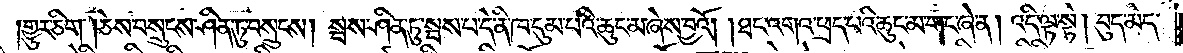གྱུར་ཅིག །ཅེས་བསྲུངས་ཤིན་ཏུ་བསྲུངས། སྦས་ཤིན་ཏུ་སྦས་པ་དེ་ནི་ཁ་དུམ་པའི་ཆུང་མ་ཞེས་བྱའོ། །ཐང་འགའ་ཕྲད་པའི་ཆུང་མ་གང་ཞེ་ན། འདི་ལྟ་སྟེ། བུད་མེད་
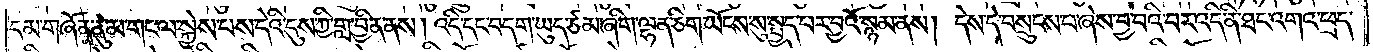དམ་གཞོན་ནུ་མ་གང་ལ་སྐྱེས་པས་དེའི་དུས་ཀྱི་གླ་བྱིན་ནས། འདི་དང་བདག་ཡུད་ཙམ་ཞིག་ལྷན་ཅིག་ཡོངས་སུ་སྤྱད་པར་བྱའོ་སྙམ་ནས། དེས་དེ་བསྲུངས་པ་ཞེས་བྱ་བའི་བར་འདི་ནི་ཐང་འགའ་ཕྲད་
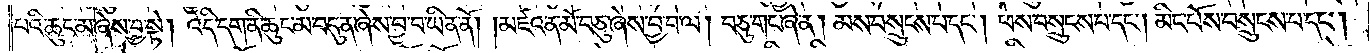པའི་ཆུང་མ་ཞེས་བྱ་སྟེ། འདི་དག་ནི་ཆུང་མ་བདུན་ཞེས་བྱ་བ་ཡིན་ནོ། །མཛའ་ན་མོ་བཅུ་ཞེས་བྱ་བ་ལ། བཅུ་གང་ཞེ་ན། མས་བསྲུངས་པ་དང༌། ཕས་བསྲུངས་པ་དང༌། མིང་པོས་བསྲུངས་པ་དང༌།
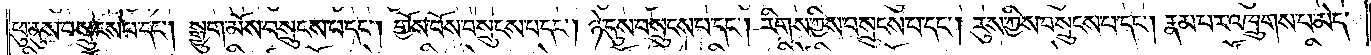ཕུ་ནུས་བསྲུངས་པ་དང༌། སྒྱུག་མོས་བསྲུངས་པ་དང༌། གྱོས་པོས་བསྲུངས་པ་དང༌། ཉེ་དུས་བསྲུངས་པ་དང༌། རིགས་ཀྱིས་བསྲུངས་པ་དང༌། རུས་ཀྱིས་བསྲུངས་པ་དང༌། རྣམ་པར་འཁྲུགས་པ་མེད་
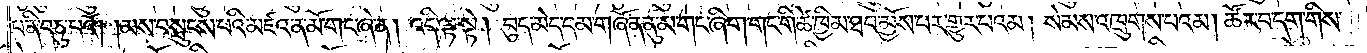པ་ནི་བཅུ་པའོ། །མས་བསྲུངས་པའི་མཛའ་ན་མོ་གང་ཞེ་ན། འདི་ལྟ་སྟེ། བུད་མེད་དམ་གཞོན་ནུ་མ་གང་ཞིག་གང་གི་ཚེ་ཁྱིམ་ཐབ་མྱོས་པར་གྱུར་པའམ། སེམས་འཁྲུགས་པའམ། ཚོར་བ་དག་གིས་
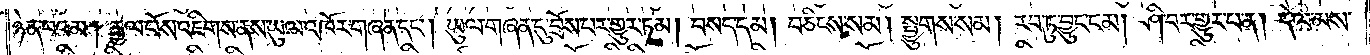ཉེན་པའམ། རྒྱལ་པོས་འཇིགས་ནས་ཡུལ་འཁོར་གཞན་དང༌། ཡུལ་གཞན་དུ་བྲོས་པར་གྱུར་ཏམ། བསད་དམ། བཅིངས་སམ། སྤྱུགས་སམ། རབ་ཏུ་བྱུང་ངམ། ཤི་བར་གྱུར་པ་ན། དེ་ལ་མས་
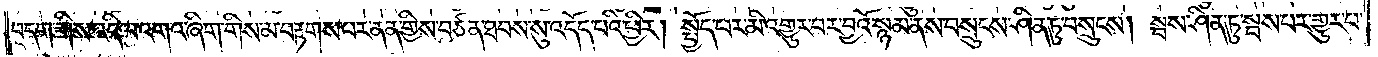བདག་གིས་འདི་ལ་འགའ་ཞིག་གིས་མ་བརྟགས་པར་ནན་གྱིས་བཙན་ཐབས་སུ་འདོད་པའི་ཕྱིར། སྤྱོད་པར་མི་འགྱུར་བར་བྱའོ་སྙམ་ནས་བསྲུངས་ཤིན་ཏུ་བསྲུངས། སྦས་ཤིན་ཏུ་སྦས་པར་གྱུར་པ་
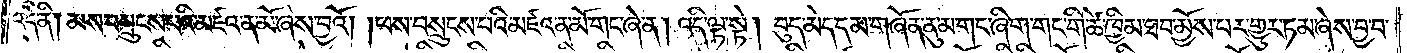འདི་ནི། མས་བསྲུངས་པའི་མཛའ་ན་མོ་ཞེས་བྱའོ། །ཕས་བསྲུངས་པའི་མཛའ་ན་མོ་གང་ཞེ་ན། འདི་ལྟ་སྟེ། བུད་མེད་དམ་གཞོན་ནུ་མ་གང་ཞིག་གང་གི་ཚེ་ཁྱིམ་ཐབ་མྱོས་པར་གྱུར་ཏམ་ཞེས་བྱ་བ་
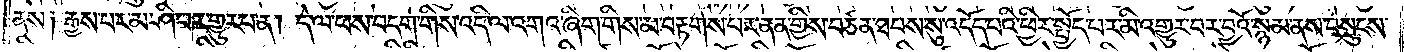ནས༑ རྒྱས་པར་མ་ཤི་བར་གྱུར་པ་ན། དེ་ལ་ཕས་བདག་གིས་འདི་ལ་འགའ་ཞིག་གིས་མ་བརྟགས་པར་ནན་གྱིས་བཙན་ཐབས་སུ་འདོད་པའི་ཕྱིར་སྤྱོད་པར་མི་འགྱུར་བར་བྱའོ་སྙམ་ནས་བསྲུངས་
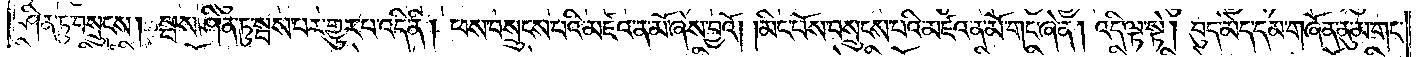ཤིན་ཏུ་བསྲུངས། སྦས་ཤིན་ཏུ་སྦས་པར་གྱུར་པ་འདི་ནི། ཕས་བསྲུངས་པའི་མཛའ་ན་མོ་ཞེས་བྱའོ། །མིང་པོས་བསྲུངས་པའི་མཛའ་ན་མོ་གང་ཞེ་ན། འདི་ལྟ་སྟེ། བུད་མེད་དམ་གཞོན་ནུ་མ་གང་
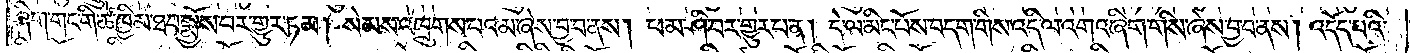ཞིག་གང་གི་ཚེ་ཁྱིམ་ཐབ་སྨྱོས་པར་གྱུར་ཏམ། སེམས་འཁྲུགས་པའམ་ཞེས་བྱ་བ་ནས། ཕ་མ་ཤི་བར་གྱུར་པ་ན། དེ་ལ་མིང་པོས་བདག་གིས་འདི་ལ་འགའ་ཞིག་གིས་ཞེས་བྱ་བ་ནས། འདོད་པའི་
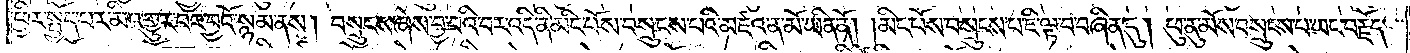ཕྱིར་སྤྱོད་པར་མི་འགྱུར་བར་བྱའོ་སྙམ་ནས། བསྲུངས་ཞེས་བྱ་བའི་བར་འདི་ནི་མིང་པོས་བསྲུངས་པའི་མཛའ་ན་མོ་ཡིན་ནོ། །མིང་པོས་བསྲུངས་པ་ཇི་ལྟ་བ་བཞིན་དུ། ཕུ་ནུ་མོས་བསྲུངས་པ་ཡང་བརྗོད་
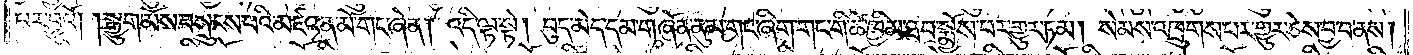པར་བྱའོ། །སྒྱུག་མོས་བསྲུངས་པའི་མཛའ་ན་མོ་གང་ཞེ་ན། འདི་ལྟ་སྟེ། བུད་མེད་དམ་གཞོན་ནུ་མ་གང་ཞིག་གང་གི་ཚེ་ཁྱིམ་ཐབ་སྨྱོས་པར་གྱུར་ཏམ། སེམས་འཁྲུགས་པར་གྱུར་ཅེས་བྱ་བ་ནས།
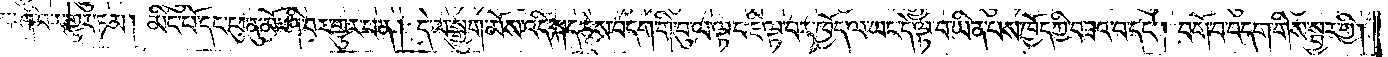ཕ་མ་ཤི་བར་གྱུར་ཏམ། མིང་པོ་དང་ཕུ་ནུ་མོ་ཤི་བར་གྱུར་པ་ན། དེ་ལ་སྒྱུག་མོས་འདི་སྐད་ཅེས་བདག་གི་བུ་ལ་ལྟ་བ་ཇི་ལྟ་བར་ཁྱོད་ལ་ཡང་དེ་ལྟ་བ་ཡིན་པས་ཁྱོད་ཀྱི་བཟའ་བ་དང༌། བགོ་བ་བདག་གིས་སྦྱར་གྱི།
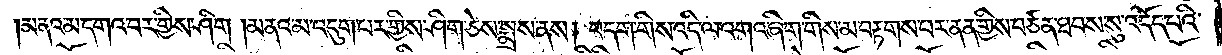མནའ་མ་དགའ་བར་གྱིས་ཤིག །མནའ་མ་འདུག་པར་གྱིས་ཤིག་ཅེས་སྨྲས་ནས། བདག་གིས་འདི་ལ་འགའ་ཞིག་གིས་མ་བརྟགས་པར་ནན་གྱིས་བཙན་ཐབས་སུ་འདོད་པའི་
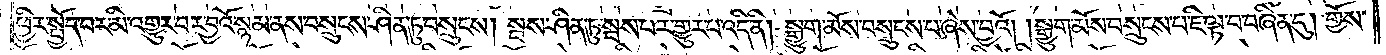ཕྱིར་སྤྱོད་པར་མི་འགྱུར་བར་བྱའོ་སྙམ་ནས་བསྲུངས་ཤིན་ཏུ་བསྲུངས། སྦས་ཤིན་ཏུ་སྦས་པར་གྱུར་པ་འདི་ནི། སྒྱུག་མོས་བསྲུངས་པ་ཞེས་བྱའོ། །སྒྱུག་མོས་བསྲུངས་པ་ཇི་ལྟ་བ་བཞིན་དུ། གྱོས་
